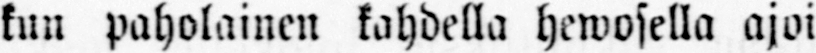kun paholainen kahdella hewosella ajoi
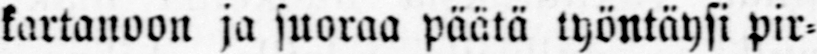kartanoon ja suoraa päätä työntäysi pir-
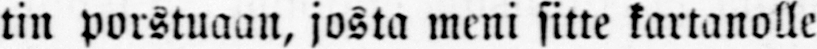tin porstuaan, josta meni sille kartanolle
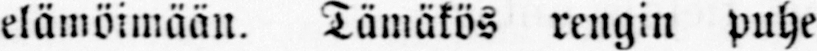elämöimään. Tämäkös rengin puhe
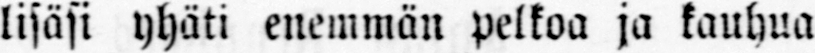lisäsi yhäti enemmän pelkoa ja kauhua
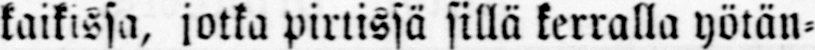kaikissa, jotka pirtissä sillä kerralla yötän-
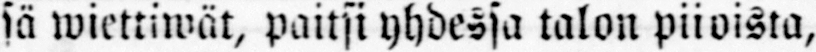sä wiettiwät, paitsi yhdessä talon piioista,
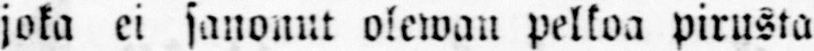joka ei sanonut olewan pelkoa pirusta
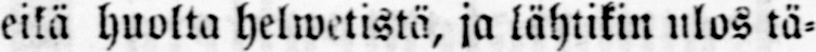eikä huolta helwetistä, ja lähtikin ulos tä-
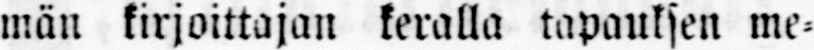män kirjoittajan keralla tapauksen me-
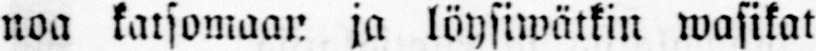noa katsomaan ja löysiwätkin wasikat
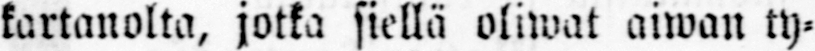kartanolta, jotka siellä oliwat aiwan ty-
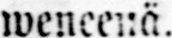weneenä.
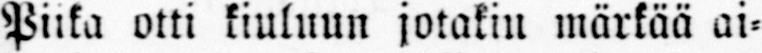Piika otti kiuluun jotakin märkää ai-
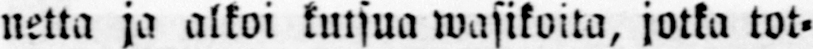netta ja alkoi kutsua wasikoita, jotka tot-
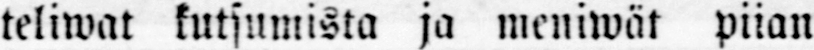teliwat kutsumista ja meniwät piian
